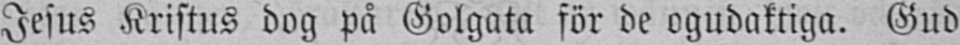Jesus Kristus dog på Golgata för de ogudaktiga. Gud
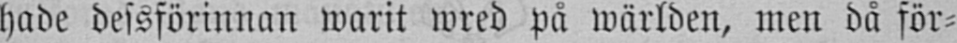hade dessförinnan warit wred på wärlden, men då för-
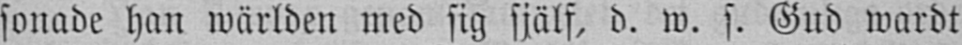sonade han wärlden med sig själf, d. w. s. Gud wardt
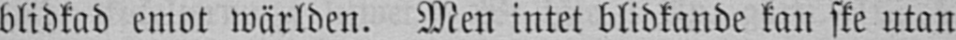blidkad emot wärlden. Men intet blidkande kan ske utan
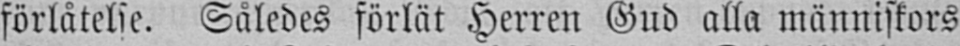förlåtelse. Således förlät Herren Gud alla människors
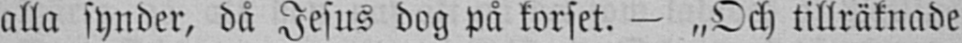alla synder, då Jesus dog på korset. — "Och tillräknade
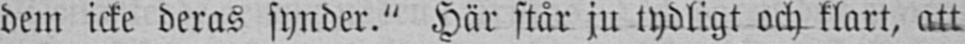dem icke deras synder." Här står ju tydligt och klart, att
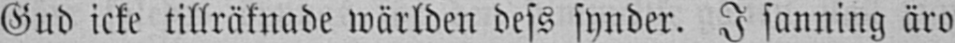Gud icke tillräknade wärlden dess synder. I sanning äro
